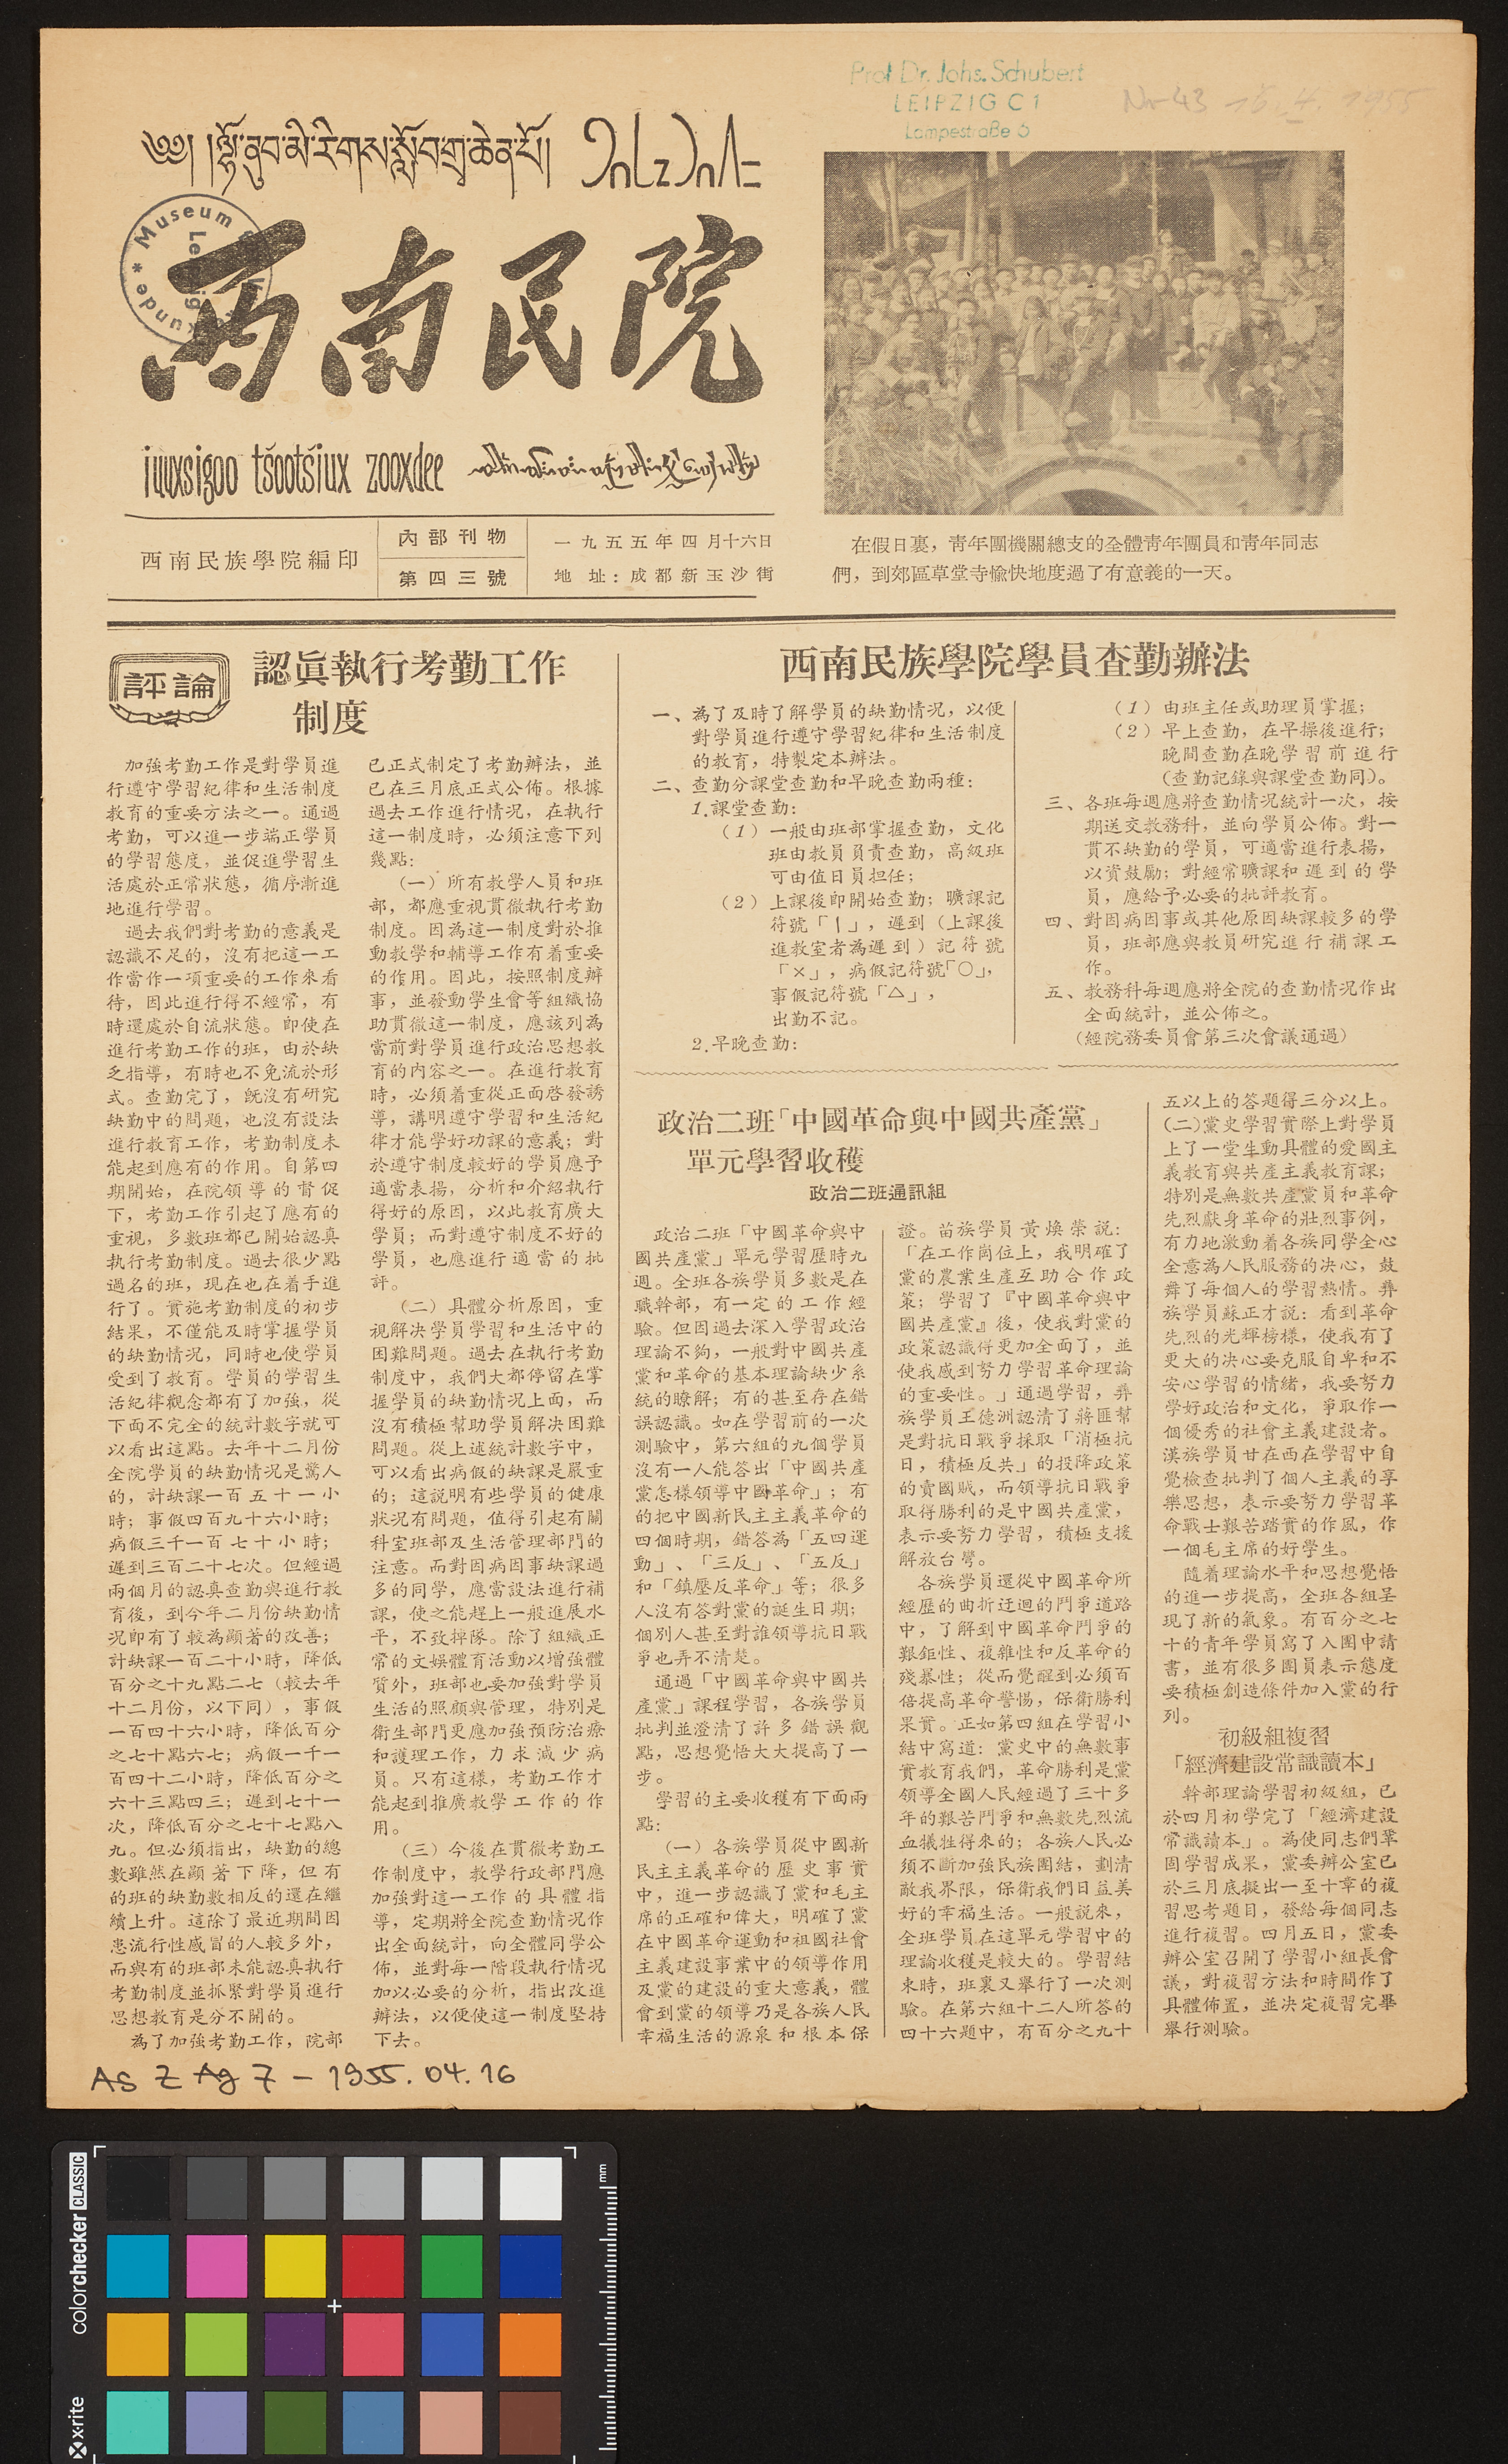༄༅། །ལྷོ་ནུབ་མི་རིགས་སློབ་གྲྭ་ཆེན་པོ།
西南民院
iuuxsigoo ts'oots'iux zooxdee
西南民族學院編印
內部刊物
第四三號
一九五五年四月十六日
地址：成都新玉沙街
在假日裏，靑年團機關總支的全體靑年團員和靑年同志
們，到郊區草堂寺愉快地度過了有意義的一天。
評論
認眞執行考勤工作
制度
加強考勤工作是對學員進
行遵守學習紀律和生活制度
教育的重要方法之一。通過
考勤，可以進一步端正學員
的學習態度，並促進學習生
活處於正常狀態，循序漸進
地進行學習。
過去我們對考勤的意義是
認識不足的，沒有把這一工
作當作一項重要的工作來看
待，因此進行得不經常，有
時還處於自流狀態。卽使在
進行考勤工作的班，由於缺
乏指導，有時也不免流於形
式。查勤完了，旣沒有研究
缺勤中的問題，也沒有設法
進行教育工作，考勤制度未
能起到應有的作用。自第四
期開始，在院領導的督促
下，考勤工作引起了應有的
重視，多數班都已開始認真
執行考勤制度。過去很少點
過名的班，現在也在着手進
行了。實施考勤制度的初步
結果，不僅能及時掌握學員
的缺勤情況，同時也使學員
受到了教育。學員的學習生
活紀律觀念都有了加強，從
下面不完全的統計數字就可
以看出這點。去年十二月份
全院學員的缺勤情況是驚人
的，計缺課一百五十一小
時；事假四百九十六小時；
病假三千一百七十小時；
遲到三百二十七次。但經過
兩個月的認真查勤與進行教
育後，到今年二月份缺勤情
況卽有了較爲顯著的改善；
計缺課一百二十小時，降低
百分之十九點二七（較去年
十二月份，以下同），事假
一百四十六小時，降低百分
之七十點六七；病假一千一
百四十二小時，降低百分之
六十三點四三；遲到七十一
次，降低百分之七十七點八
九。但必須指出，缺勤的總
數雖然在顯著下降，但有
的班的缺勤數相反的還在繼
續上升。這除了最近期間因
患流行感冒的人較多外，
而與有的班部未能認真執行
考勤制度並抓緊對學員進行
思想教育是分不開的。
爲了加強考勤工作，院部
已正式制訂了考勤辦法，並
已在三月底正式公佈。根據
過去工作進行情況，在執行
這一制度時，必須注意下列
幾點：
（一）所有教學人員和班
部，都應重視貫徹執行考勤
制度。因爲這一制度對於推
動教學和輔導工作有着重要
的作用。因此，按照制度辦
事，並發動學生會等組織協
助貫徹這一制度，應該列爲
當前對學員進行政治思想教
育的內容之一。在進行教育
時，必須着重從正面啓發誘
導，講明遵守學習和生活紀
律才能學好功課的意義；對
於遵守制度較好的學員應予
適當表揚，分析和介紹執行
得好的原因，以此教育廣大
學員；而對遵守制度不好的
學員，也應進行適當的批
評。
（二）具體分析原因，重
視解決學員學習和生活中的
困難問題。過去在執行考勤
制度中，我們大都停留在掌
握學員的缺勤情況上面，而
沒有積極幫助學員解決困難
問題。從上述統計數字中，
可以看出病假的缺課是嚴重
的；這說明有些學員的健康
狀況有問題，值得引起有關
科室班部及生活管理部門的
注意。而對因病因事缺課過
多的同學，應當設法進行補
課，使之能趕上一般進展水
平，不致掉隊。除了組織正
常的文娛體育活動以增強體
質外，班部也要加強對學員
生活的照顧與管理，特別是
衛生部門更應加強預防治療
和護理工作，力求減少病
員。只有這樣，考勤工作才
能起到推廣教學工作的作
用。
（三）今後在貫徹考勤工
作制度中，教學行政部門應
加強對這一工作的具體指
導，定期將全院查勤情況作
出全面統計，向全體同學公
佈，並對每一階段執行情況
加以必要的分析，指出改進
辦法，以便使這一制度堅持
下去。
西南民族學院學員查勤辦法
一、爲了及時了解學員的缺勤情況，以便
對學員進行遵守學習紀律和生活制度
的教育，特制定本辦法。
二、查勤分課堂查勤和早晚查勤兩種：
1.課堂查勤：
（1）一般由班部掌握查勤，文化
班由教員負責查勤，高級班
可由值日員担任；
（2）上課後卽開始查勤；曠課記
符號「＼」，遲到（上課後
進教師者爲遲到）記符號
「✕」，病假記符號「〇」，
事假記符號「△」，
出勤不記。
2.早晚查勤：
（1）由班主任或助理員掌握；
（2）早上查勤，在早操後進行；
晚間查勤在晚學習前進行
（查勤記錄與課堂查勤同）。
三、各班每週應將查勤情況統計一次，按
期送交教務科，並向學員公佈。對一
貫不缺勤的學員，可適當進行表揚，
以資鼓勵；對經常曠課和遲到的學
員，應給予必要的批評教育。
四、對因病因事或其他原因缺課較多的學
員，班部應與教員研究進行補課工
作。
五、教務科每週應將全院的查勤情況作出
全面統計，並公佈之。
（經院務委員會第三次會議通過）
政治二班「中國革命與中國共產黨」
單元學習收穫
政治二班通訊組
政治二班「中國革命與中
國共產黨」單元學習歷時九
週。全班各族學員多數是在
職幹部，有一定的工作經
驗。但因過去深入學習政治
理論不夠，一般對中國共產
黨和革命的基本理論缺少系
統的瞭解；有的甚至存在錯
誤認識。如在學習前的一次
測驗中，第六組的九個學員
沒有一人能答出「中國共產
黨怎樣領導中國革命」；有
的把中國新民主主義革命的
四個時期，錯答爲「五四運
動」、「三反」、「五反」
和「鎮壓反革命」等；很多
人沒有答對黨的誕生日期；
個別人甚至對誰領導抗日戰
爭也弄不清楚。
通過「中國革命與中國共
產黨」課程學習，各族學員
批判並澄清了許多錯誤觀
點，思想覺悟大大提高了一
步。
學習的主要收穫有下面兩
點：
（一）各族學員從中國新
民主主義革命的歷史事實
中，進一步認識了黨和毛主
席的正確和偉大，明確了黨
在中國革命運動和祖國社會
主義建設事業中的領導作用
及黨的建設的重大意義，體
會到黨的領導乃是各族人民
幸福生活的源泉和根本保
證。苗族學員黃煥榮說：
「在工作崗位上，我明確了
黨的農業生產互助合作政
策；學習了『中國革命與中
國共產黨』後，是我對黨的
政策認識得更加全面了，並
使我感到努力學習革命理論
的重要性。」通過學習，彝
族學員王德洲認清了將匪幫
是對抗日戰爭採取「消極抗
日，積極反共」的投降政策
的賣國賊，而領導抗日戰爭
取得勝利的是中國共產黨，
表示要努力學習，積極支援
解放台灣。
各族學員還從中國革命所
經歷的曲折迂迴的鬥爭道路
中，了解到中國革命鬥爭的
艱鉅性、複雜性和反革命的
殘暴性；從而覺醒到必須百
倍提高革命警惕，保衛勝利
果實。正如第四組在學習小
結中寫道：黨史中的無數事
實教育我們，革命勝利是黨
領導全國人民經過了三十多
年的艱苦鬥爭和無數先烈流
血犧牲得來的；各族人民必
須不斷加強民族團結，劃清
敵我界限，保衛我們日益美
好的幸福生活。一般說來，
全班學員在這單元學習中的
理論收穫是較大的。學習結
束時，班裏又舉行了一次測
驗。在第六組十二人所答的
四十六題中，有百分之九十
五以上的答題得三分以上。
（二）黨史學習實際上對學員
上了一堂生動具體的愛國主
義教育與共產主義教育課；
特別是無數共產黨員和革命
先烈獻身革命的壯烈事例，
有力地激動着各族同學全心
全意為人民服務的決心，鼓
舞了每個人的學習熱情。彝
族學員蘇正才說：看到革命
先烈的光輝榜樣，使我有了
更大的決心要克服自卑和不
安心學習的情緒，我要努力
學好政治和文化，爭取作一
各優秀的社會主義建設者。
漢族學員甘在西在學習中自
覺檢查批判了個人主義的享
樂思想，表示要努力學習革
命戰士艱苦踏實的作風，作
一個毛主席的好學生。
隨着理論水平和思想覺悟
的進一步提高，各班各組呈
現了新的氣象。有百分之七
十的青年學員寫了入圍申請
書，並有很多團員表示態度
要積極創造條件加入黨的行
列。
初級組複習
「經濟建設常識讀本」
幹部理論學習初級組，已
於四月初學完了「經濟建設
常識讀本」。為使同志們鞏
固學習成果，黨委辦公室已
於三月底擬出一至十章的複
習思考題目，發給每個同志
進行複習。四月五日，黨委
辦公室召開了學習小組長會
議，對複習方法和時間作了
具體佈置，並決定複習完畢
舉行測驗。
